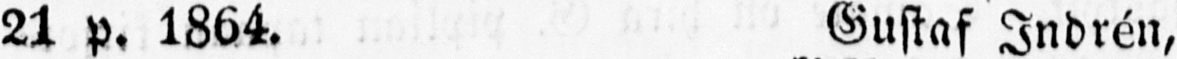21 p. 1864. Gustaf Indrén,
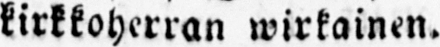kirkkoherran wirkainen.
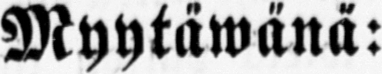Myytäwänä:
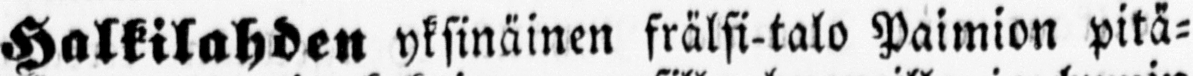Halkilahden yksinäinen frälsi-talo Paimion pitä-
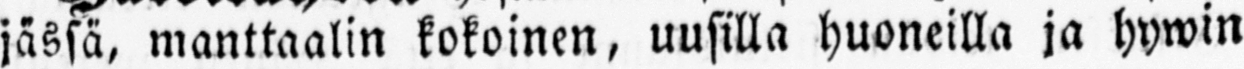jässä, manttaalin kokoinen, uusilla huoneilla ja hywin
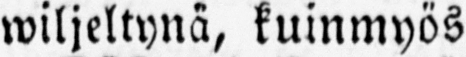wiljeltynä, kuinmyös
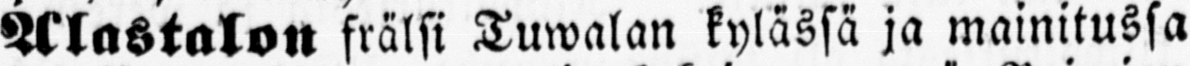Alastalon frälsi Tuwalan kylässä ja mainitussa
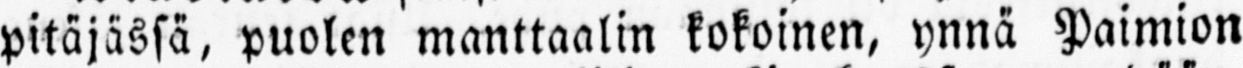pitäjässä, puolen manttaalin kokoinen, ynnä Paimion
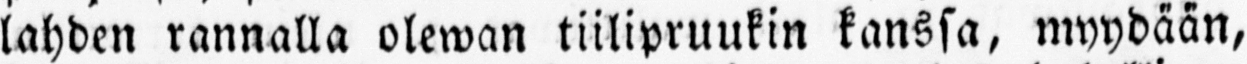lahden rannalla olewan tiilipruukin kanssa, myydään,
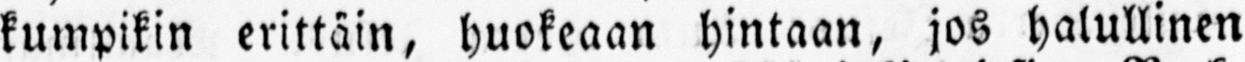kumpikin erittäin, huokeaan hintaan, jos halullinen
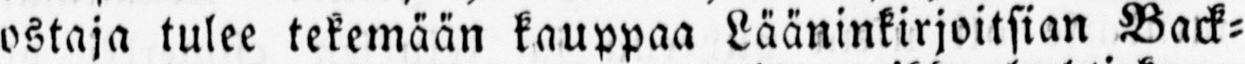ostaja tulee tekemään kauppaa Lääninkirjoitsian Back-
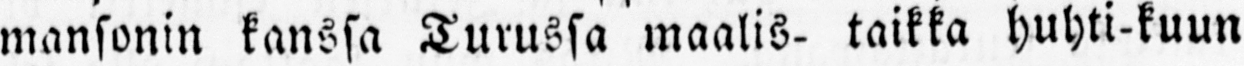mansonin kanssa Turussa maalis- taikka huhti-kuun
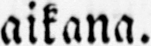aikana.
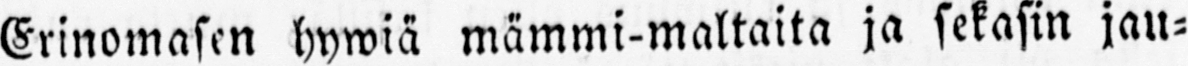Erinomasen hywiä mämmi-maltaita ja sekasin jau-
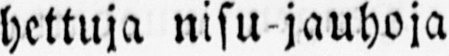hettuja nisu-jauhoja
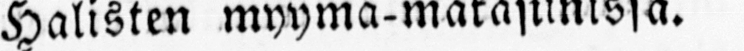Halisten myymä-makasiinissa.
